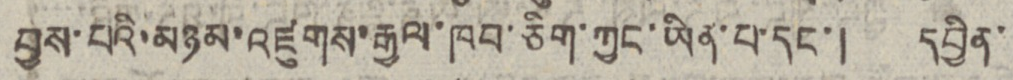བྱས་པའི་མཉམ་འཛུགས་རྒྱལ་ཁབ་ཅིག་ཀྱང་ཡིན་པ་དང་། དབྱིན་
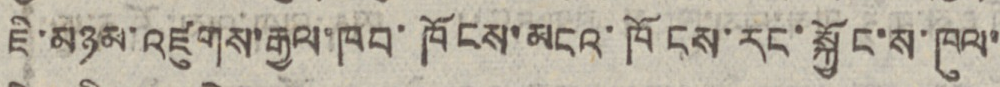ཇི་མཉམ་འཛུགས་རྒྱལ་ཁབ་ཁོངས་མངའ་ཁོངས་རང་སྐྱོང་ས་ཁུལ་
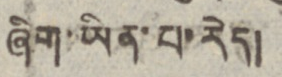ཞིག་ཡིན་པ་རེད།
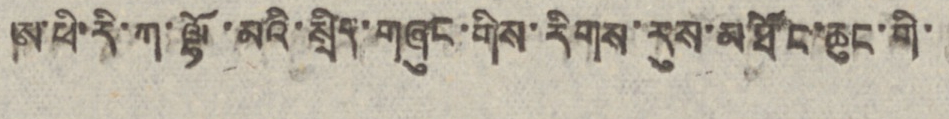ཨ་ཕི་རི་ཀ་ལྷོ་མའི་སྲིད་གཞུང་གིས་རིགས་རུས་མཐོང་ཆུང་གི་
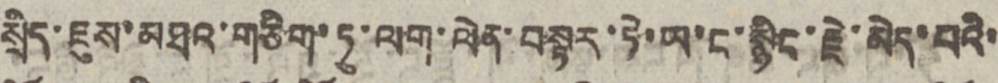སྲིད་ཇུས་མཐའ་གཅིག་ཏུ་ལག་ལེན་བསྟར་ཏེ་ཡ་ང་སྙིང་རྗེ་མེད་པའི་
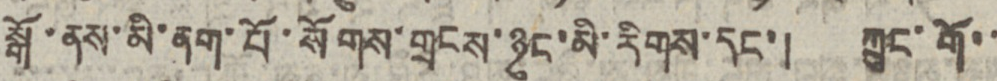སྒོ་ནས་མི་ནག་པོ་སོགས་གྲངས་ཉུང་མི་རིགས་དང་། ཀྲུང་གོ་་
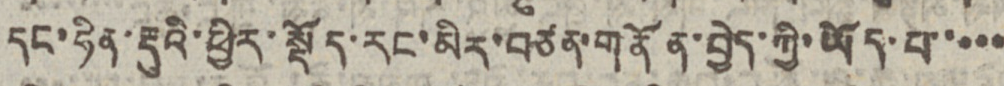དང་ཧིན་རྡུའི་ཕྱིར་སྡོད་རང་མིར་བཙན་གནོན་བྱེད་ཀྱི་ཡོད་པ་་་་་
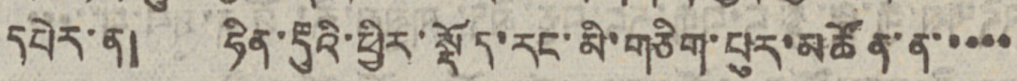དཔེར་ན། ཧིན་རྡུའི་ཕྱིར་སྡོད་རང་མི་གཅིག་པུར་མཚོན་ན་་་་་
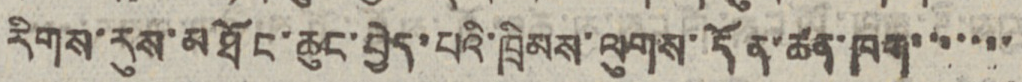རིགས་རུས་མཐོང་ཆུང་བྱེད་པའི་ཁྲིམས་ལུགས་དོན་ཚན་ཁག་་་་་་་
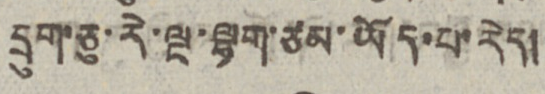དྲུག་ཅུ་རེ་ལྔ་ལྷག་ཙམ་ཡོད་པ་རེད།
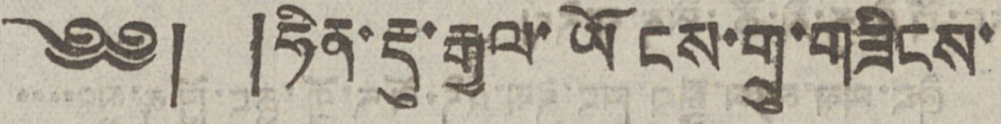༄༅། །ཧིན་རྡུ་རྒྱལ་ཡོངས་གྲུ་གཟིངས་
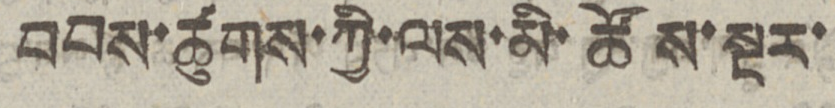བབས་ཚུགས་ཀྱི་ལས་མི་ཚོས་སྔར་
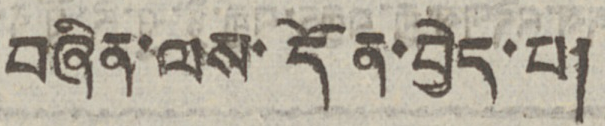བཞིན་ལས་དོན་བྱེད་པ།
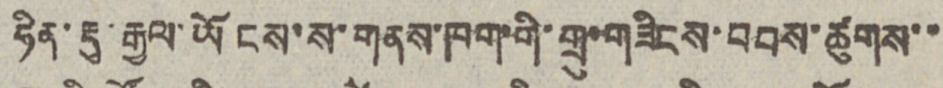ཧིན་རྡུ་རྒྱལ་ཡོངས་ས་གནས་ཁག་གི་གྲུ་གཟིངས་བབས་ཚུགས་་
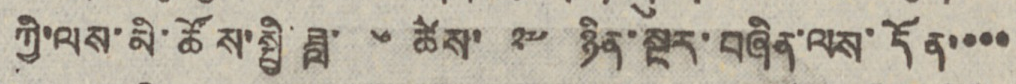ཀྱི་ལས་མི་ཚོས་སྤྱི་ཟླ་ ༦ ཚེས་ ༢༧ ཉིན་སྔར་བཞིན་ལས་དོན་་་་
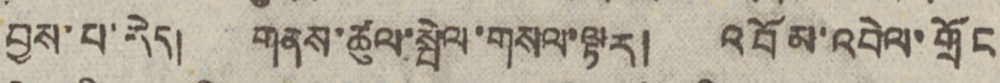བྱས་པ་རེད། གནས་ཚུལ་སྤེལ་གསལ་ལྟར། འབོམ་འབེལ་གྲོང
